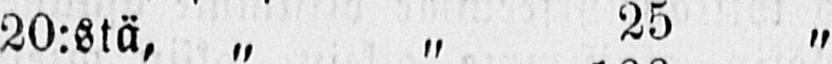20:stä, „ „ 25 „
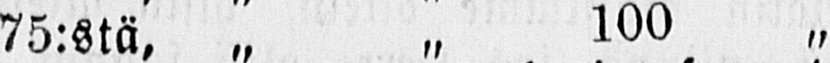75:stä, „ „ 100 „
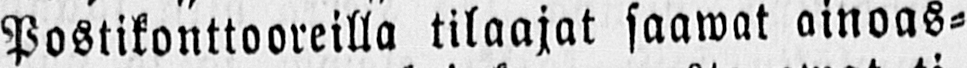Postikonttooreilla tilaajat saawat ainoas-
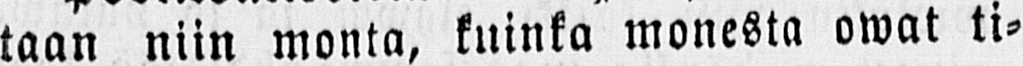taan niin monta, kuinka monesta owat ti-
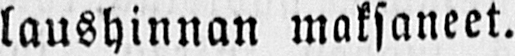laushinnan maksaneet.
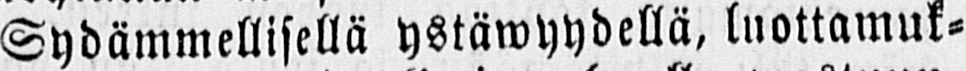Sydämmellisellä ystäwyydellä, luottamuk-
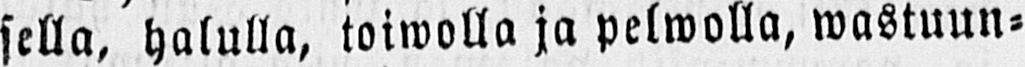sella, halulla, toiwolla ja pelwolla, wastuun-
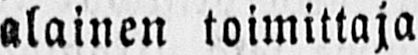alainen toimittaja
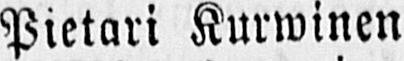Pietari Kurwinen
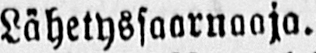Lähetyssaarnaaja.
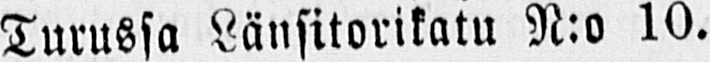Turussa Länsitorikatu N:o 10.
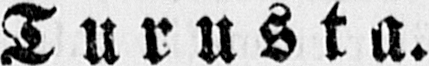Turusta.
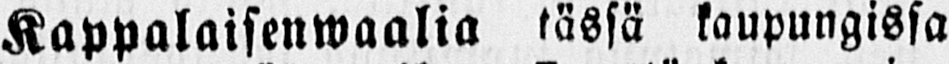Kappalaisenwaalia tässä kaupungissa
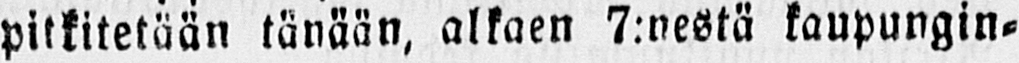pitkitetään tänään, alkaen 7:nestä kaupungin-
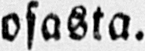osasta.
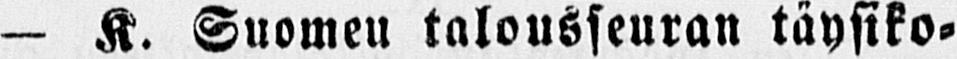— K. Suomen talousseuran täysiko-
